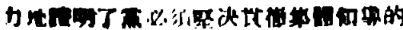力地證明了黨必須堅決貫徹集體領導的
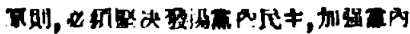原則，必須堅決發揚黨內民主，加強黨內
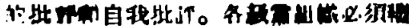的批評和自我批評。各級黨組織必須繼
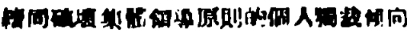續同破壞集體領導原則的個人獨裁傾向
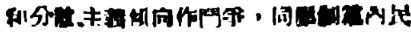和分散主義傾向作鬥爭，同壓制黨內民
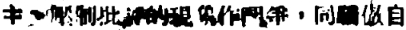主、壓制批評的現象作鬥爭，同驕傲自
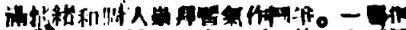滿情緒和個人崇拜習氣作鬥爭。一切這
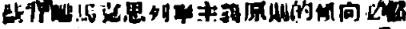些背離馬克思列寧主義原則的傾向必然
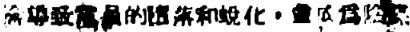會導致黨員的墮落和蛻化，並成爲陰謀
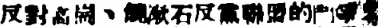反對高崗、饒漱石反黨聯盟的鬥爭再
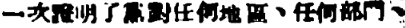一次證明了黨對任何地區、任何部門、
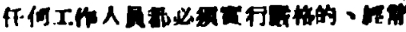任何工作人員都必須實行嚴格的、經常
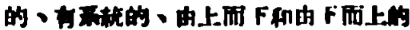的、有系統的、由上而下和由下而上的
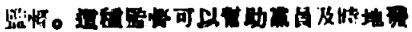監督。這種監督可以幫助黨員及時地發
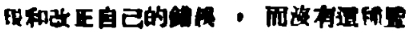現和改正自己的錯誤 ，而沒有這種監
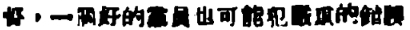督，一個好的黨員也可能犯嚴重的錯誤
